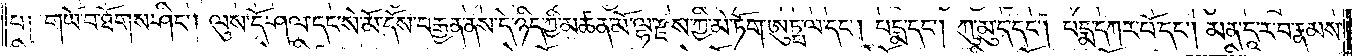པ༑ གཡོ་བ་ཐོགས་ཤིང༌། ལུས་དོ་ཤལ་དང་སེ་མོ་དོས་བརྒྱན་ནས་དེ་ཉིད་ཀྱི་མཚན་མོ་ལྷ་རྫས་ཀྱི་མེ་ཏོག་ཨུཏྤ་ལ་དང༌། པདྨ་དང༌། ཀུ་མུ་ད་དང༌། པདྨ་དཀར་པོ་དང༌། མན་དཱ་ར་བ་རྣམས་
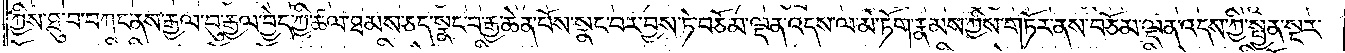ཀྱིས་ཐུ་བ་བཀང་ནས་རྒྱལ་བུ་རྒྱལ་བྱེད་ཀྱི་ཚལ་ཐམས་ཅད་སྣང་བ་རྒྱ་ཆེན་པོས་སྣང་བར་བྱས་ཏེ་བཅོམ་ལྡན་འདས་ལ་མེ་ཏོག་རྣམས་ཀྱིས་གཏོར་ནས་བཅོམ་ལྡན་འདས་ཀྱི་སྤྱན་སྔར་
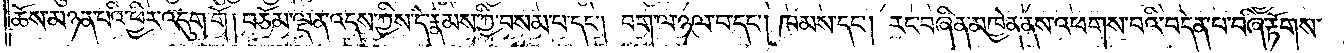ཆོས་མཉན་པའི་ཕྱིར་འདུག་གོ །བཅོམ་ལྡན་འདས་ཀྱིས་དེ་རྣམས་ཀྱི་བསམ་པ་དང༌། བག་ལ་ཉལ་བ་དང༌། ཁམས་དང༌། རང་བཞིན་མཁྱེན་ནས་འཕགས་པའི་བདེན་པ་བཞི་རྟོགས་
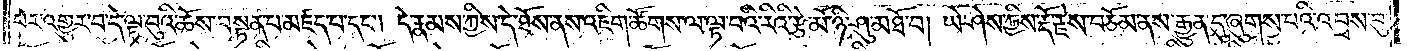པར་འགྱུར་བ་དེ་ལྟ་བུའི་ཆོས་བསྟན་པ་མཛད་པ་དང༌། དེ་རྣམས་ཀྱིས་དེ་ཐོས་ནས་འཇིག་ཚོགས་ལ་ལྟ་བའི་རིའི་རྩེ་མོ་ཉི་ཤུ་མཐོ་བ། ཡེ་ཤེས་ཀྱིས་རྡོ་རྗེས་བཅོམ་ནས་རྒྱུན་དུ་ཞུགས་པའི་འབྲས་བུ་
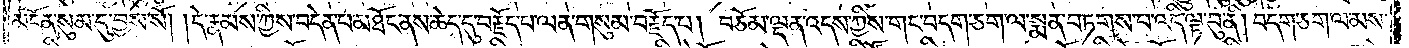མངོན་སུམ་དུ་བྱས་སོ། །དེ་རྣམས་ཀྱིས་བདེན་པ་མཐོང་ནས་ཆེད་དུ་བརྗོད་པ་ལན་གསུམ་བརྗོད་པ། བཅོམ་ལྡན་འདས་ཀྱིས་གང་བདག་ཅག་ལ་སྨན་བཏགས་པ་འདི་ལྟ་བུ་ནི། བདག་ཅག་ལ་མས་
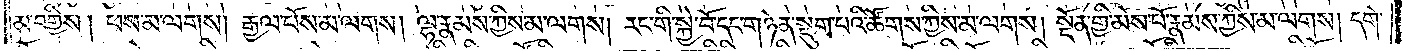མ་བགྱིས་།ཕས་མ་ལགས། རྒྱལ་པོས་མ་ལགས། ལྷ་རྣམས་ཀྱིས་མ་ལགས། རང་གི་སྐྱེ་བོ་དང་གཉེན་སྡུག་པའི་ཚོགས་ཀྱིས་མ་ལགས། སྔོན་གྱི་མེས་པོ་རྣམས་ཀྱིས་མ་ལགས། དགེ་
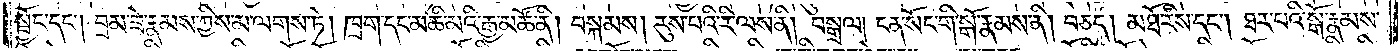སྦྱོང་དང༌། བྲམ་ཟེ་རྣམས་ཀྱིས་མ་ལགས་ཏེ། ཁྲག་དང་མཆི་མའི་རྒྱ་མཚོ་ནི། བསྐམས། རུས་པའི་རི་ལས་ནི། བསྒྲལ། ངན་སོང་གི་སྒོ་རྣམས་ནི། བཅད། མཐོ་རིས་དང༌། ཐར་པའི་སྒོ་རྣམས་
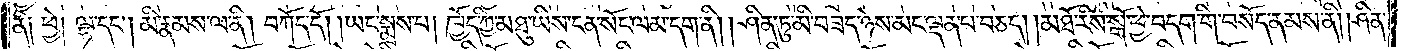ནི༑ ཕྱེ། ལྷ་དང༌། མི་རྣམས་ལ་ནི། བཀོད་དོ། །ཡང་སྨྲས་པ། ཁྱོད་ཀྱི་མཐུ་ཡིས་ངན་སོང་ལམ་དག་ནི། །ཤིན་ཏུ་མི་བཟད་ཉེས་མང་ལྡན་པ་བཅད། །མཐོ་རིས་སྒོ་ཕྱེ་བདག་གི་བསོད་ནམས་ནི། ཤིན་
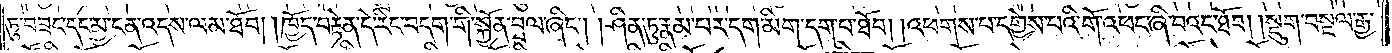ཏུ་བཟང་དང་མྱ་ངན་འདས་ལམ་ཐོབ། །ཁྱོད་བརྟེན་དེ་རིང་བདག་གི་སྐྱོན་བྲལ་ཞིང༌། །ཤིན་ཏུ་རྣམ་པར་དག་མིག་དག་པ་ཐོབ། །འཕགས་པ་དགྱེས་པའི་གོ་འཕང་ཞི་བའང་ཐོབ། །སྡུག་བསྔལ་རྒྱ་
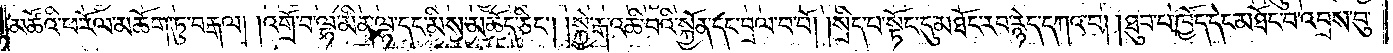མཚོའི་ཕ་རོལ་མཆོག་ཏུ་བརྒལ། །འགྲོ་བ་ལྷ་མིན་ལྷ་དང་མིས་མཆོད་ཅིང༌། །སྐྱེ་རྒ་འཆི་བའི་སྐྱོན་དང་བྲལ་བ་པོ། །སྲིད་པ་སྟོང་དུ་མཐོང་རབ་རྙེད་དཀའ་བ། །ཐུབ་པ་ཁྱོད་དེང་མཐོང་བ་འབྲས་བུ་
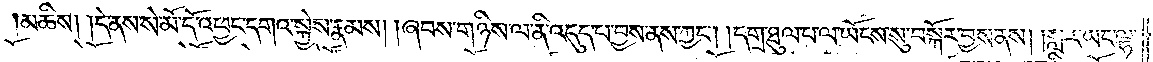མཆིས། །དེ་ནས་སེ་མོ་དོ་འཕྱང་དགའ་སྐྱེས་རྣམས། །ཞབས་གཉིས་ལ་ནི་འདུད་པ་བྱས་ནས་ཀྱང༌། །དགྲ་ཐུལ་པ་ལ་ཡོངས་སུ་བསྐོར་བྱས་ནས། །སླར་ཡང་ལྷ་
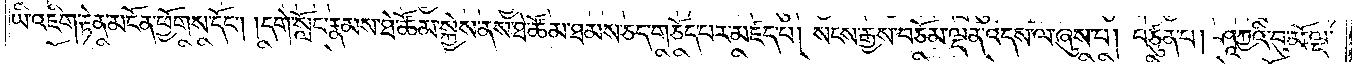ཡི་འཇིག་རྟེན་མངོན་ཕྱོགས་དོང༌། །དགེ་སློང་རྣམས་ཐེ་ཚོམ་སྐྱེས་ནས་ཐེ་ཚོམ་ཐམས་ཅད་གཅོད་པར་མཛད་པ། སངས་རྒྱས་བཅོམ་ལྡན་འདས་ལ་ཞུས་པ། བཙུན་པ། ཤཱཀྱའི་བུ་མོ་ལྔ་
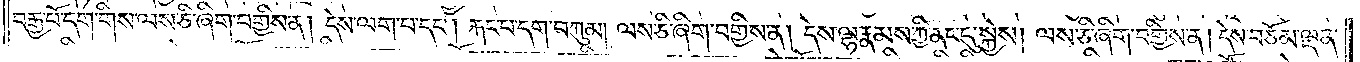བརྒྱ་པོ་དག་གིས་ལས་ཅི་ཞིག་བགྱིས་ན། དེས་ལག་པ་དང༌། རྐང་པ་དག་བཀུམ། ལས་ཅི་ཞིག་བགྱིས་ན། དེས་ལྷ་རྣམས་ཀྱི་ནང་དུ་སྐྱེས། ལས་ཅི་ཞིག་བགྱིས་ན། དེས་བཅོམ་ལྡན་
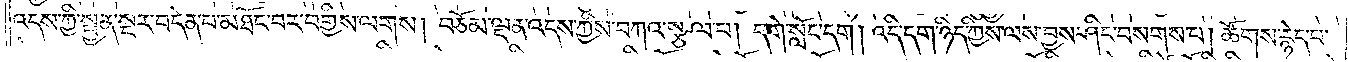འདས་ཀྱི་སྤྱན་སྔར་བདེན་པ་མཐོང་བར་བགྱིས་ལགས། བཅོམ་ལྡན་འདས་ཀྱིས་བཀའ་སྩལ་པ། དགེ་སློང་དག །འདི་དག་ཉིད་ཀྱིས་ལས་བྱས་ཤིང་བསགས་པ། ཚོགས་རྙེད་པ་
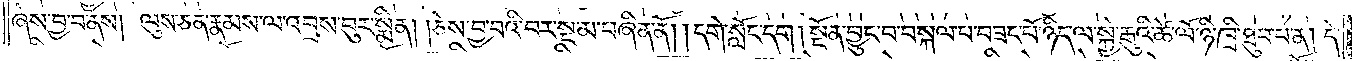ཞེས་བྱ་བ་ནས། ལུས་ཅན་རྣམས་ལ་འབྲས་བུར་སྨིན། །ཅེས་བྱ་བའི་བར་སྔ་མ་བཞིན་ནོ། །དགེ་སློང་དག། སྔོན་བྱུང་བ་བསྐལ་པ་བཟང་པོ་ཉིད་ལ་སྐྱེ་རྒུའི་ཚེ་ལོ་ཉི་ཁྲི་ཐུབ་པ་ན། དེ་
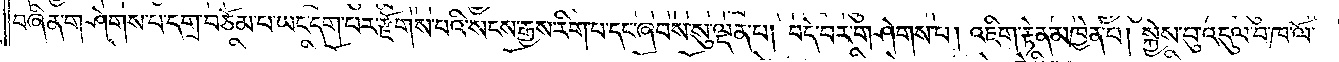བཞིན་གཤེགས་པ་དགྲ་བཅོམ་པ་ཡང་དག་པར་རྫོགས་པའི་སངས་རྒྱས་རིག་པ་དང་ཞབས་སུ་ལྡན་པ། བདེ་བར་གཤེགས་པ། འཇིག་རྟེན་མཁྱེན་པ། སྐྱེས་བུ་འདུལ་བ་ཁ་ལོ་
